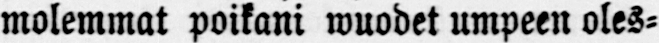molemmat poikani wuodet umpeen oles-
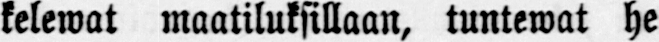kelewat maatiluksillaan, tuntewat he
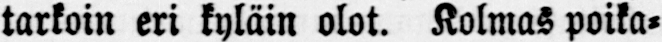tarkoin eri kyläin olot. Kolmas poika-
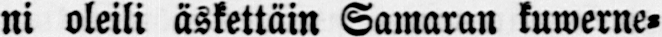ni oleili äskettäin Samaran kuwerne-
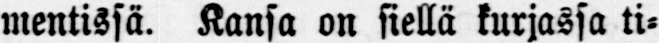mentissä. Kansa on siellä kurjassa ti-
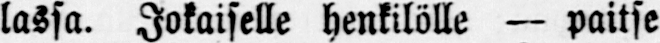lassa. Jokaiselle henkilölle — paitse
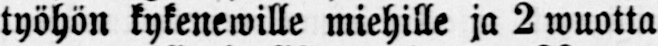työhön kykenewille miehille ja 2 wuotta
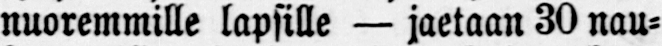nuoremmille lapsille — jaetaan 30 nau-
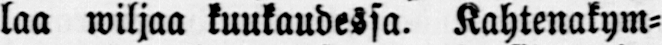laa wiljaa kuukaudessa. Kahtenakym-
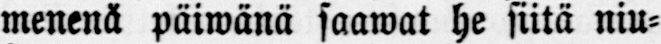menenä päiwänä saawat he siitä niu-
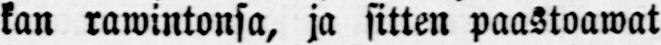kan rawintonsa, ja sitten paastoawat
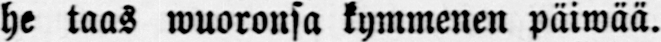he taas wuoronsa kymmenen päiwää.
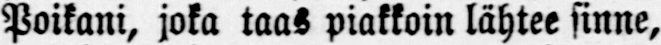Poikani, joka taas piakkoin lähtee sinne,
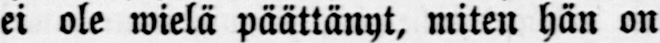ei ole wielä päättänyt, miten hän on
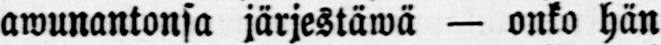awunantonsa järjestäwä — onko hän
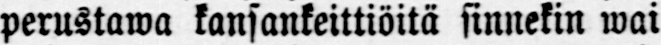perustawa kansankeittiöitä sinnekin wai
